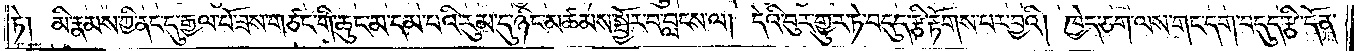ཏེ། མི་རྣམས་ཀྱི་ནང་དུ་རྒྱལ་པོ་ཟས་གཙང་གི་ཆུང་མ་དམ་པའི་རུམ་དུ་ཉིང་མཚམས་སྦྱོར་བ་བླངས་ལ། དེའི་བུར་གྱུར་ཏེ་བདུད་རྩི་རྟོགས་པར་བྱའི། ཁྱེད་ཅག་ལས་གང་དག་བདུད་རྩི་དོན་
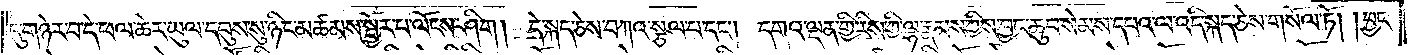དུ་གཉེར་བ་དེ་ཕལ་ཆེར་ཡུལ་དབུས་སུ་ཉིང་མཚམས་སྦྱོར་པ་ལོངས་ཤིག །དེ་སྐད་ཅེས་བཀའ་སྩལ་པ་དང༌། དགའ་ལྡན་གྱི་རིས་ཀྱི་ལྷ་རྣམས་ཀྱིས་བྱང་ཆུབ་སེམས་དཔའ་ལ་འདི་སྐད་ཅེས་གསོལ་ཏོ། །བྱང་
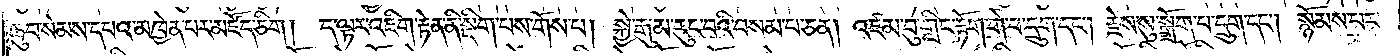ཆུབ་སེམས་དཔའ་མཁྱེན་པར་མཛོད་ཅིག། ད་ལྟར་འཇིག་རྟེན་ནི་སྡིག་པས་གོས་པ། སྐྱེ་རྒུ་མ་རུང་བའི་བསམ་པ་ཅན། འཛམ་བུ་གླིང་རྟོག་གེ་པ་དྲུག་དང༌། རྗེས་སུ་སྒྲོག་པ་དྲུག་དང༌། སྙོམས་པར་
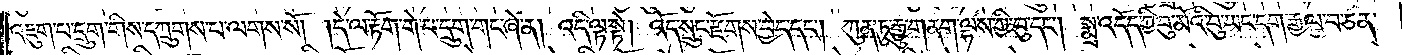འཇུག་པ་དྲུག་གིས་དཀྲུགས་པ་ལགས་སོ། །དེ་ལ་རྟོག་གི་བ་དྲུག་གང་ཞེ་ན། འདི་ལྟ་སྟེ། འོད་སྲུང་རྫོགས་བྱེད་དང༌། ཀུན་ཏུ་རྒྱུ་གནག་ལྷས་ཀྱི་བུ་དང༌། སྨྲ་འདོད་ཀྱི་བུ་མོའི་བུ་ཡང་དག་རྒྱལ་བ་ཅན་
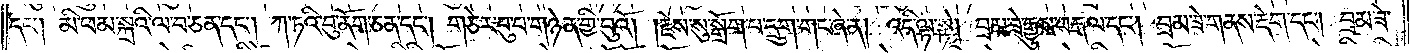དང༌། མི་ཕམ་སྐྲའི་ལ་བ་ཅན་དང༌། ཀ་ཏའི་བུ་ནོག་ཅན་དང༌། གཅེར་བུ་པ་གཉེན་གྱི་བུའོ། །རྗེས་སུ་སྒྲོག་པ་དྲུག་གང་ཞེ་ན། འདི་ལྟ་སྟེ། བྲམ་ཟེ་རྒྱུས་བརྒལ་དང༌། བྲམ་ཟེ་གནས་རྡེག་དང༌། བྲམ་ཟེ་
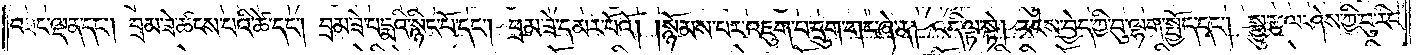བཟང་ལྡན་དང༌། བྲམ་ཟེ་ཚངས་པའི་ཚེ་དང༌། བྲམ་ཟེ་པདྨའི་སྙིང་པོ་དང༌། བྲམ་ཟེ་དམར་པོའོ། །སྙོམས་པར་འཇུག་པ་དྲུག་གང་ཞེ་ན། འདི་ལྟ་སྟེ། རངས་བྱེད་ཀྱི་བུ་ལྷག་སྤྱོད་དང༌། སྒྱུ་རྩལ་ཤེས་ཀྱི་བུ་རིང་
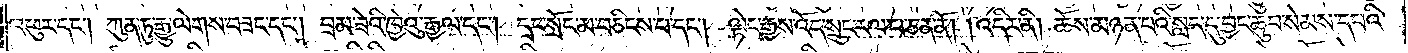འཕུར་དང༌། ཀུན་ཏུ་རྒྱུ་ལེགས་བཟང་དང༌། བྲམ་ཟེའི་ཁྱེའུ་རྒྱལ་དང༌། དྲང་སྲོང་མ་བཅིངས་པ་དང༌། ལྟེང་རྒྱས་འོད་སྲུང་རལ་པ་ཅན་ནོ། །འདིར་ནི། ཆོས་མཉན་པའི་སླད་དུ་བྱང་ཆུབ་སེམས་དཔའི་
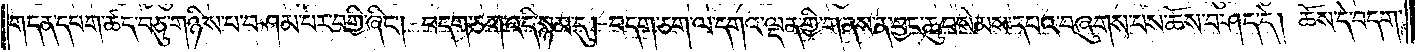གདན་དཔག་ཚད་བཅུ་གཉིས་པ་བཤམ་པར་བགྱི་ཞིང༌། བདག་ཅག་འདི་སྙམ་དུ། བདག་ཅག་ལ་དགའ་ལྡན་གྱི་གནས་ན་བྱང་ཆུབ་སེམས་དཔའ་བཞུགས་པས་ཆོས་བཤད་དེ། ཆོས་དེ་བདག་
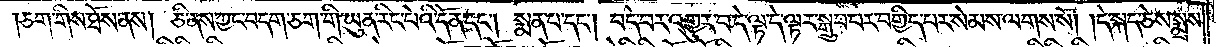ཅག་གིས་ཐོས་ནས། ཅི་ནས་ཀྱང་བདག་ཅག་གི་ཡུན་རིང་པོའི་དོན་དང༌། སྨན་པ་དང༌། བདེ་བར་འགྱུར་བ་དེ་ལྟ་དེ་ལྟར་སྒྱུར་པར་བགྱིད་པར་སེམས་ལགས་སོ། །དེ་སྐད་ཅེས་སྨྲས་
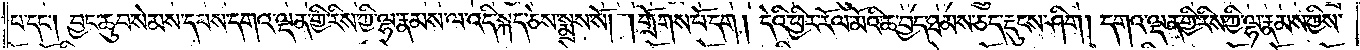པ་དང༌། བྱང་ཆུབ་སེམས་དཔས་དགའ་ལྡན་གྱི་རིས་ཀྱི་ལྷ་རྣམས་ལ་འདི་སྐད་ཅེས་སྨྲས་སོ། །གྲོགས་པོ་དག །དེའི་ཕྱིར་རོལ་མོའི་ཆ་བྱད་ཐམས་ཅད་རྡུངས་ཤིག །དགའ་ལྡན་གྱི་རིས་ཀྱི་ལྷ་རྣམས་ཀྱིས་
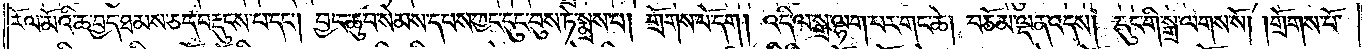རོལ་མོའི་ཆ་བྱད་ཐམས་ཅད་བརྡུངས་པ་དང༌། བྱང་ཆུབ་སེམས་དཔས་ཀྱང་དུང་བུས་ཏེ་སྨྲས་པ། གྲོགས་པོ་དག །འདི་ལ་སྒྲ་ལྷག་པར་གང་ཆེ། བཅོམ་ལྡན་འདས། དུང་གི་སྒྲ་ལགས་སོ། །གྲོགས་པོ་
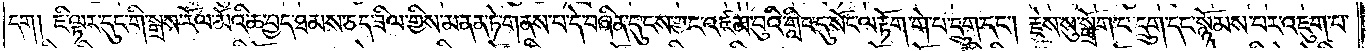དག །ཇི་ལྟར་དུང་གི་སྒྲས་རོལ་མོའི་ཆ་བྱད་ཐམས་ཅད་ཟིལ་གྱིས་མནན་ཏེ་གནས་པ་དེ་བཞིན་དུ་ངས་ཀྱང་འཛམ་བུའི་གླིང་དུ་སོང་ལ་རྟོག་གེ་པ་དྲུག་དང༌། རྗེས་སུ་སྒྲོག་པ་དྲུག་དང་སྙོམས་པར་འཇུག་པ་
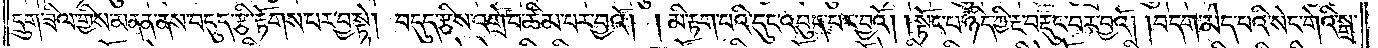དྲུག་ཟིལ་གྱིས་མནན་ནས་བདུད་རྩི་རྟོགས་པར་བྱ་སྟེ། བདུད་རྩིས་འགྲོ་བ་ཚིམ་པར་བྱའོ། །མི་རྟག་པའི་དུང་འབུད་པར་བྱའོ། །སྟོང་པ་ཉིད་ཀྱི་རྔ་བརྡུང་བར་བྱའོ། །བདག་མེད་པའི་སེང་གེའི་སྒྲ་
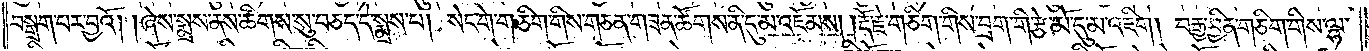བསྒྲག་པར་བྱའོ། །ཞེས་སྨྲས་ནས་ཚིགས་སུ་བཅད་དེ་སྨྲས་པ། སེང་གེ་གཅིག་གིས་གཅན་གཟན་ཚོགས་ནི་དུ་མ་འཇོམས། །རྡོ་རྗེ་གཅིག་གིས་བྲག་གི་རྩེ་མོ་དུ་མ་འཇིག། བརྒྱ་བྱིན་གཅིག་གིས་ལྷ་
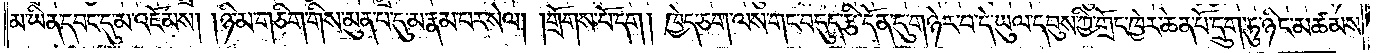མ་ཡིན་དབང་དུ་མ་འཇོམས། །ཉི་མ་གཅིག་གིས་མུན་པ་དུ་མ་རྣམ་པར་སེལ། །གྲོགས་པོ་དག །ཁྱེད་ཅག་ལས་གང་བདུད་རྩི་དོན་དུ་གཉེར་བ་དེ་ཡུལ་དབུས་ཀྱི་གྲོང་ཁྱེར་ཆེན་པོ་དྲུག་ཏུ་ཉིང་མཚམས་
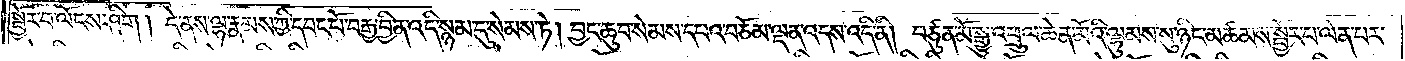སྦྱོར་བ་ལོངས་ཤིག །དེ་ནས་ལྷ་རྣམས་ཀྱི་དབང་པོ་བརྒྱ་བྱིན་འདི་སྙམ་དུ་སེམས་ཏེ། བྱང་ཆུབ་སེམས་དཔའ་བཅོམ་ལྡན་འདས་འདི་ནི། བཙུན་མོ་སྒྱུ་འཕྲུལ་ཆེན་མོའི་ལྷུམས་སུ་ཉིང་མཚམས་སྦྱོར་པ་ལེན་པར་
